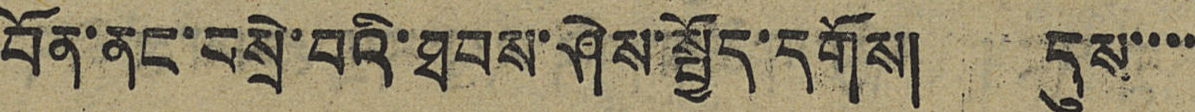བོན་ནང་བསྲེ་བའི་ཐབས་ཤེས་སྤྱོད་དགོས། དུས་་་་
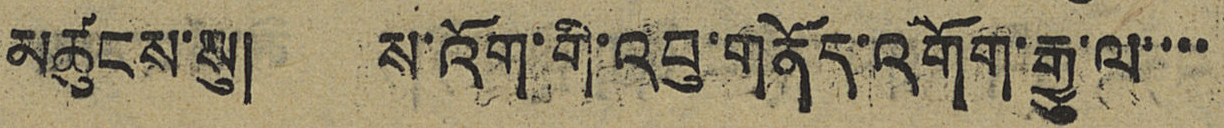མཚུངས་སུ། ས་འོག་གི་འབུ་གནོད་འགོག་རྒྱུ་ལ་་་་
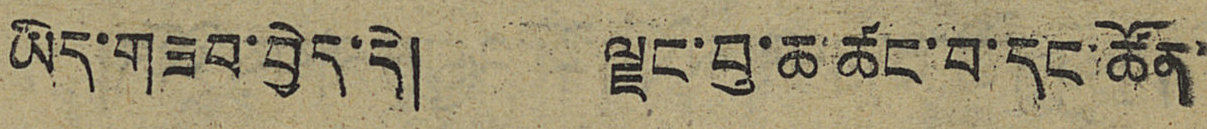ཡིད་གཟབ་བྱེད་དེ། ལྗང་བུ་ཆ་ཚང་བ་དང་ཚོན་
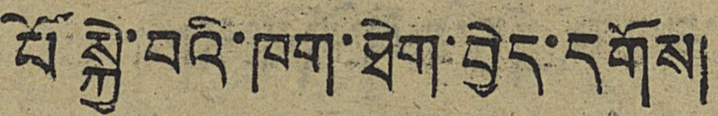པོ་སྐྱེ་བའི་ཁག་ཐེག་བྱེད་དགོས།
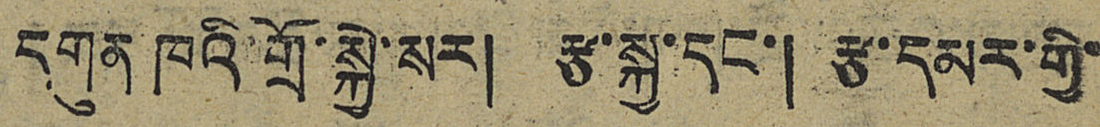དགུན་ཁའི་གྲོ་སྐྱེ་སར། རྩ་སྐྱ་དང་། རྩ་དམར་གྱི་
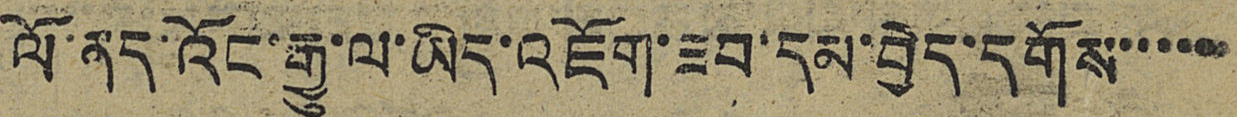ལོ་ནད་འོང་རྒྱུ་ལ་ཡིད་འཇོག་ཟབ་དམ་བྱེད་དགོས་་་་་
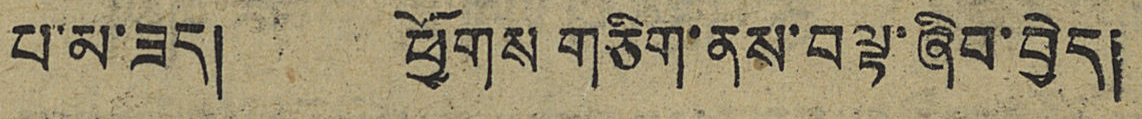པ་མ་ཟད། ཕྱོགས གཅིག་ནས་བལྟ་ཞིབ་བྱེད།
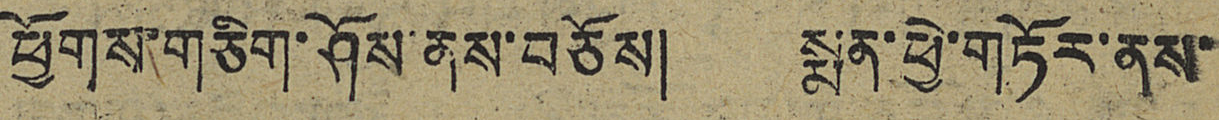ཕྱོགས་གཅིག་ཤོས་ནས་བཅོས། སྨན་ཕྱེ་གཏོར་ནས་
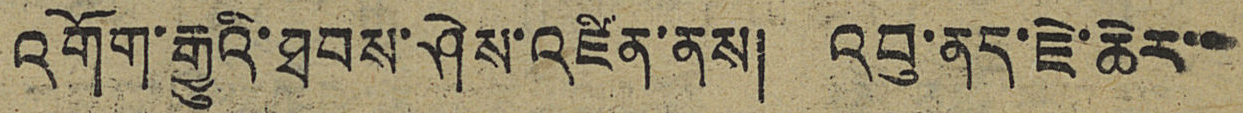འགོག་རྒྱུའི་ཐབས་ཤེས་འཛིན་ནས། འབུ་ནད་ཇེ་ཆེར་་
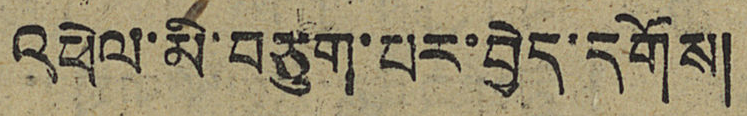འཕེལ་མི་བཅུག་པར་བྱེད་དགོས།
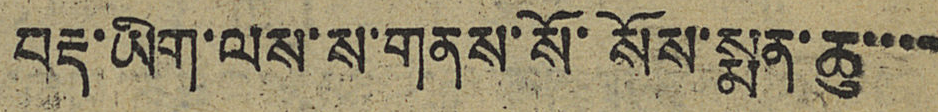བརྡ་ཡིག་ལས་ས་གནས་སོ་སོས་སྨན་ཆུ་་་་
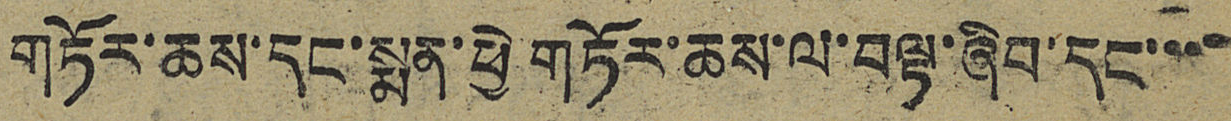གཏོར་ཆས་དང་སྨན་ཕྱེ་གཏོར་ཆས་ལ་བལྟ་ཞིབ་དང་་་་
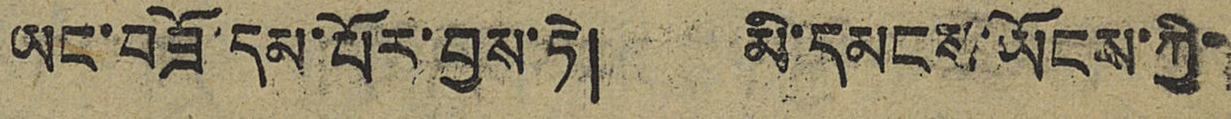ཡང་བཟོ་དམ་པོར་བྱས་ཏེ། མི་དམངས་ཡོངས་ཀྱི་
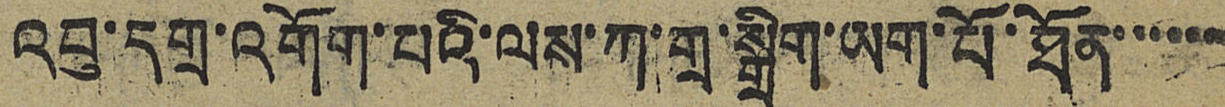འབུ་དགྲ་འགོག་པའི་ལས་ཀ་གྲ་སྒྲིག་ཡག་པོ་ཐོན་་་་་་་
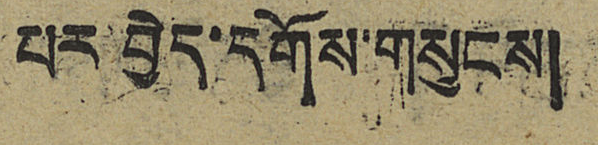པར་བྱེད་དགོས་གསུངས།
